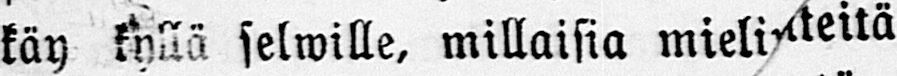käy kyllä selwille, millaisia mielineitä
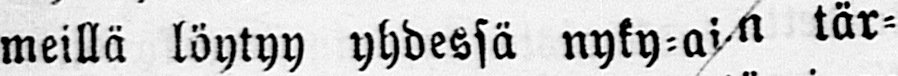meillä löytyy yhdessä nyky-ain tär-
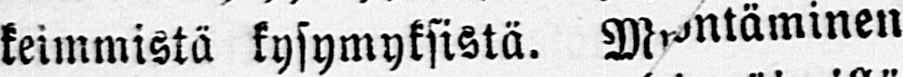keimmistä kysymyksistä. Marontäminen
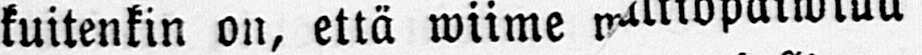kuitenkin on, että wiime waltiopäiwillä
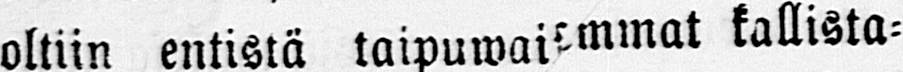oltiin entistä taipuwaismmat kallista-
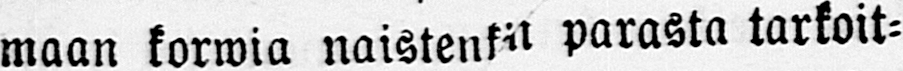maan korwia naistenkit parasta tarkoit-
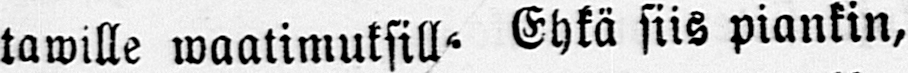tawille waatimuksill. Ehkä siis piankin,
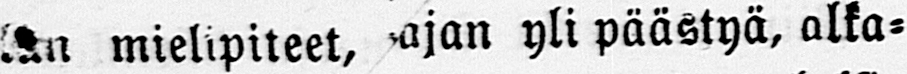tan mielipiteet, yli päästyä, alka-
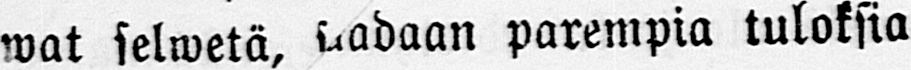wat selwetä, saadaan parempia tuloksia
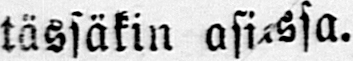tässäkin asiassa.
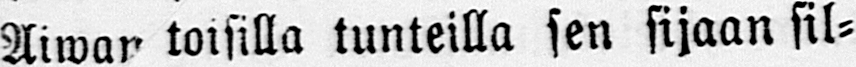Aiwan toisilla tunteilla sen sijaan sil-
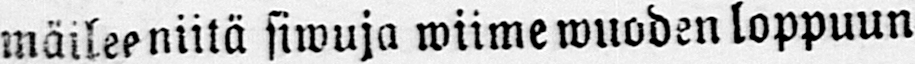mäilee niitä siwuja wiime wuoden loppuun
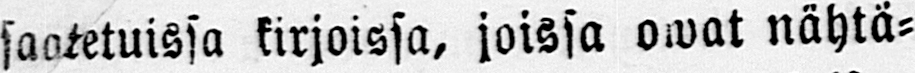saaetuissa kirjoissa, joissa owat nähtä-
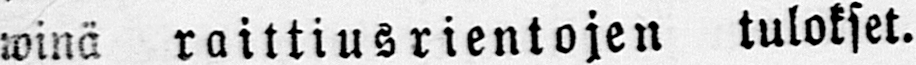winä raittiusrientojen tulokset.
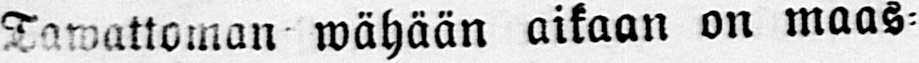Tawattoman wähään aikaan on maas-
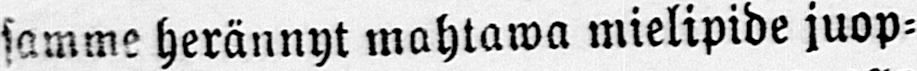samme herännyt mahtawa mielipide juop-
